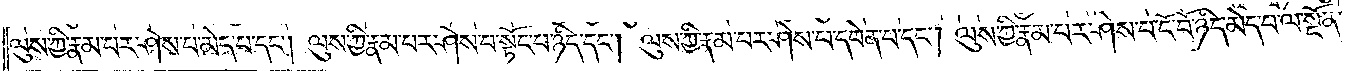ལུས་ཀྱི་རྣམ་པར་ཤེས་པ་མེད་པ་དང༌། ལུས་ཀྱི་རྣམ་པར་ཤེས་པ་སྟོང་པ་ཉིད་དང༌། ལུས་ཀྱི་རྣམ་པར་ཤེས་པ་དབེན་པ་དང༌། ལུས་ཀྱི་རྣམ་པར་ཤེས་པ་ངོ་བོ་ཉིད་མེད་པ་ལ་སྔོན་
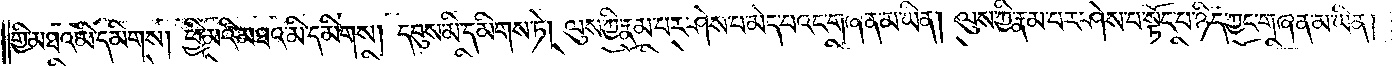གྱི་མཐའ་མི་དམིགས། ཕྱི་མའི་མཐའ་མི་དམིགས། དབུས་མི་དམིགས་ཏེ། ལུས་ཀྱི་རྣམ་པར་ཤེས་པ་མེད་པའང་གཞན་མ་ཡིན། ལུས་ཀྱི་རྣམ་པར་ཤེས་པ་སྟོང་པ་ཉིད་ཀྱང་གཞན་མ་ཡིན་
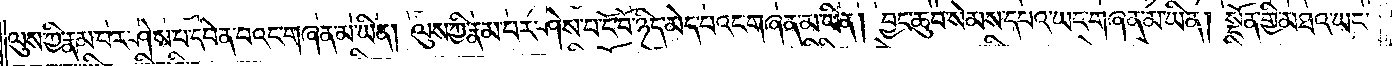ལུས་ཀྱི་རྣམ་པར་ཤེས་པ་དབེན་པའང་གཞན་མ་ཡིན། ལུས་ཀྱི་རྣམ་པར་ཤེས་པ་ངོ་བོ་ཉིད་མེད་པའང་གཞན་མ་ཡིན། བྱང་ཆུབ་སེམས་དཔའ་ཡང་གཞན་མ་ཡིན། སྔོན་གྱི་མཐའ་ཡང་
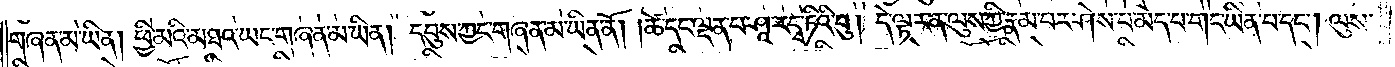གཞན་མ་ཡིན། ཕྱི་མའི་མཐའ་ཡང་གཞན་མ་ཡིན། དབུས་ཀྱང་གཞན་མ་ཡིན་ནོ། །ཚེ་དང་ལྡན་པ་ཤཱ་རདྭ་ཏིའི་བུ། དེ་ལྟར་ན་ལུས་ཀྱི་རྣམ་པར་ཤེས་པ་མེད་པ་གང་ཡིན་པ་དང༌། ལུས་
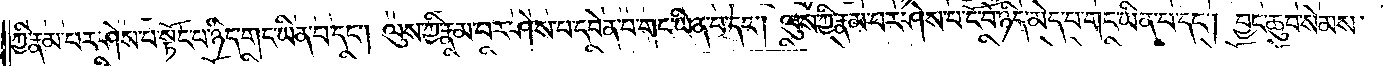ཀྱི་རྣམ་པར་ཤེས་པ་སྟོང་པ་ཉིད་གང་ཡིན་པ་དང༌། ལུས་ཀྱི་རྣམ་པར་ཤེས་པ་དབེན་པ་གང་ཡིན་པ་དང༌། ལུས་ཀྱི་རྣམ་པར་ཤེས་པ་ངོ་བོ་ཉིད་མེད་པ་གང་ཡིན་པ་དང༌། བྱང་ཆུབ་སེམས་
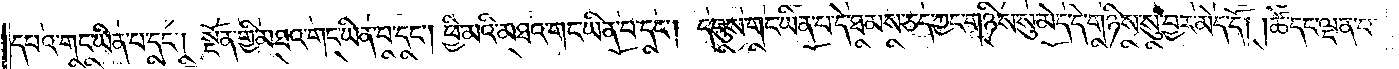དཔའ་གང་ཡིན་པ་དང༌། སྔོན་གྱི་མཐའ་གང་ཡིན་པ་དང༌། ཕྱི་མའི་མཐའ་གང་ཡིན་པ་དང༌། དབུས་གང་ཡིན་པ་དེ་ཐམས་ཅད་ཀྱང་གཉིས་སུ་མེད་དེ་གཉིས་སུ་བྱར་མེད་དོ། །ཚེ་དང་ལྡན་པ་
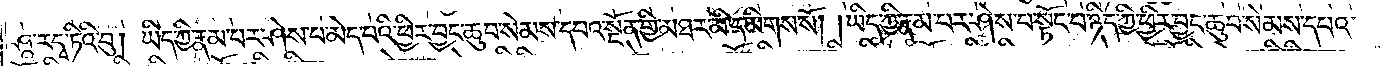ཤཱ་རདྭ་ཏིའི་བུ། ཡིད་ཀྱི་རྣམ་པར་ཤེས་པ་མེད་པའི་ཕྱིར་བྱང་ཆུབ་སེམས་དཔའ་སྔོན་གྱི་མཐར་མི་དམིགས་སོ། །ཡིད་ཀྱི་རྣམ་པར་ཤེས་པ་སྟོང་པ་ཉིད་ཀྱི་ཕྱིར་བྱང་ཆུབ་སེམས་དཔའ་
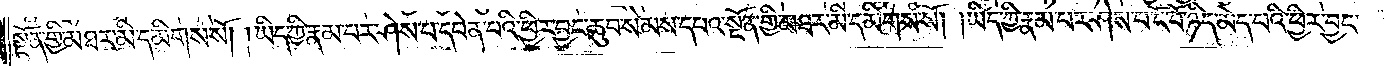སྔོན་གྱི་མཐར་མི་དམིགས་སོ། །ཡིད་ཀྱི་རྣམ་པར་ཤེས་པ་དབེན་པའི་ཕྱིར་བྱང་ཆུབ་སེམས་དཔའ་སྔོན་གྱི་མཐར་མི་དམིགས་སོ། །ཡིད་ཀྱི་རྣམ་པར་ཤེས་པ་ངོ་བོ་ཉིད་མེད་པའི་ཕྱིར་བྱང་
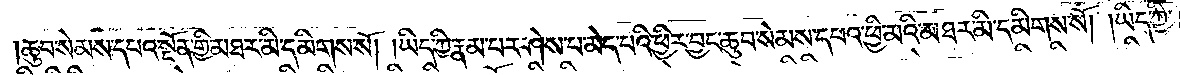ཆུབ་སེམས་དཔའ་སྔོན་གྱི་མཐར་མི་དམིགས་སོ། །ཡིད་ཀྱི་རྣམ་པར་ཤེས་པ་མེད་པའི་ཕྱིར་བྱང་ཆུབ་སེམས་དཔའ་ཕྱི་མའི་མཐར་མི་དམིགས་སོ། །ཡིད་ཀྱི་
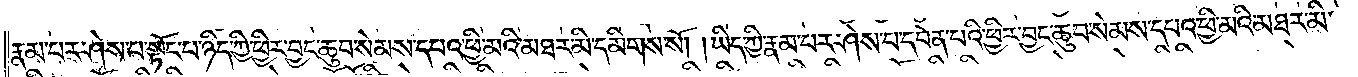རྣམ་པར་ཤེས་པ་སྟོང་པ་ཉིད་ཀྱི་ཕྱིར་བྱང་ཆུབ་སེམས་དཔའ་ཕྱི་མའི་མཐར་མི་དམིགས་སོ། །ཡིད་ཀྱི་རྣམ་པར་ཤེས་པ་དབེན་པའི་ཕྱིར་བྱང་ཆུབ་སེམས་དཔའ་ཕྱི་མའི་མཐར་མི་
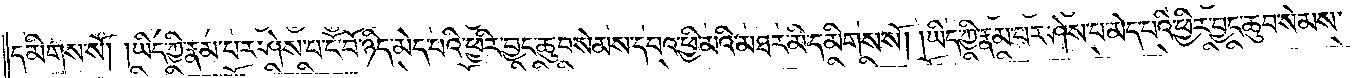དམིགས་སོ། །ཡིད་ཀྱི་རྣམ་པར་ཤེས་པ་ངོ་བོ་ཉིད་མེད་པའི་ཕྱིར་བྱང་ཆུབ་སེམས་དཔའ་ཕྱི་མའི་མཐར་མི་དམིགས་སོ། །ཡིད་ཀྱི་རྣམ་པར་ཤེས་པ་མེད་པའི་ཕྱིར་བྱང་ཆུབ་སེམས་
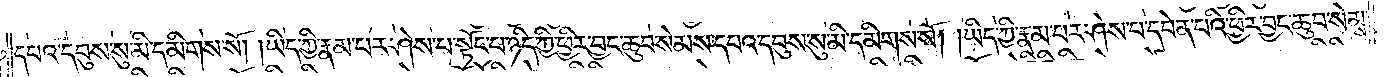དཔའ་དབུས་སུ་མི་དམིགས་སོ། །ཡིད་ཀྱི་རྣམ་པར་ཤེས་པ་སྟོང་པ་ཉིད་ཀྱི་ཕྱིར་བྱང་ཆུབ་སེམས་དཔའ་དབུས་སུ་མི་དམིགས་སོ། །ཡིད་ཀྱི་རྣམ་པར་ཤེས་པ་དབེན་པའི་ཕྱིར་བྱང་ཆུབ་སེམས་དཔའ་
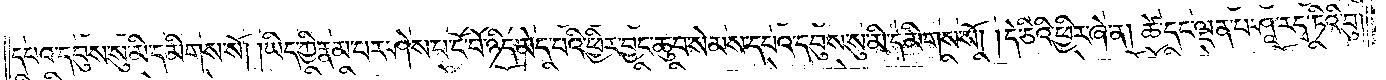དབུས་སུ་མི་དམིགས་སོ། །ཡིད་ཀྱི་རྣམ་པར་ཤེས་པ་ངོ་བོ་ཉིད་མེད་པའི་ཕྱིར་བྱང་ཆུབ་སེམས་དཔའ་དབུས་སུ་མི་དམིགས་སོ། །དེ་ཅིའི་ཕྱིར་ཞེ་ན། ཚེ་དང་ལྡན་པ་ཤཱ་རདྭ་ཏིའི་བུ་
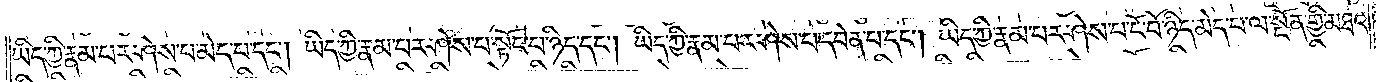ཡིད་ཀྱི་རྣམ་པར་ཤེས་པ་མེད་པ་དང༌། ཡིད་ཀྱི་རྣམ་པར་ཤེས་པ་སྟོང་པ་ཉིད་དང༌། ཡིད་ཀྱི་རྣམ་པར་ཤེས་པ་དབེན་པ་དང༌། ཡིད་ཀྱི་རྣམ་པར་ཤེས་པ་ངོ་བོ་ཉིད་མེད་པ་ལ་སྔོན་གྱི་མཐའ་
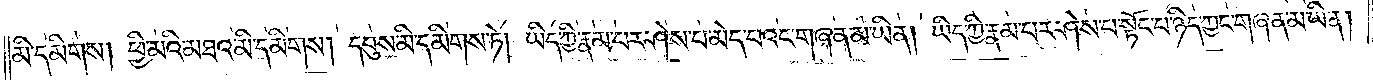མི་དམིགས། ཕྱི་མའི་མཐའ་མི་དམིགས། དབུས་མི་དམིགས་ཏེ། ཡིད་ཀྱི་རྣམ་པར་ཤེས་པ་མེད་པའང་གཞན་མ་ཡིན། ཡིད་ཀྱི་རྣམ་པར་ཤེས་པ་སྟོང་པ་ཉིད་ཀྱང་གཞན་མ་ཡིན།
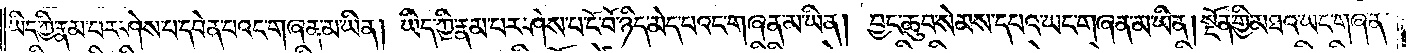ཡིད་ཀྱི་རྣམ་པར་ཤེས་པ་དབེན་པའང་གཞན་མ་ཡིན། ཡིད་ཀྱི་རྣམ་པར་ཤེས་པ་ངོ་བོ་ཉིད་མེད་པའང་གཞན་མ་ཡིན། བྱང་ཆུབ་སེམས་དཔའ་ཡང་གཞན་མ་ཡིན། སྔོན་གྱི་མཐའ་ཡང་གཞན་
